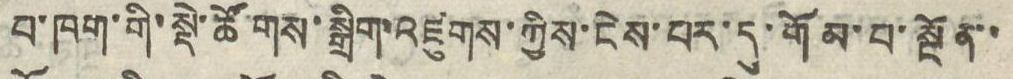པ་ཁག་གི་སྡེ་ཚོགས་སྒྲིག་འཛུགས་ཀྱིས་ངེས་པར་དུ་གོམ་པ་སྔོན་་
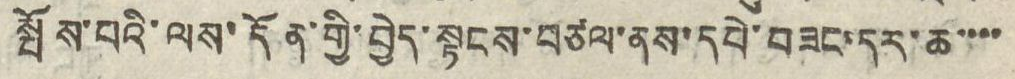སྤོས་པའི་ལས་དོན་གྱི་བྱེད་སྟངས་བཙལ་ནས་དཔེ་བཟང་དར་ཆ་་་་
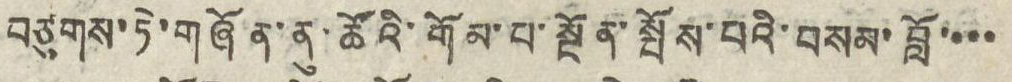བཙུགས་ཏེ་གཞོན་ནུ་ཚོའི་གོམ་པ་སྔོན་སྤོས་པའི་བསམ་བློ་་་་
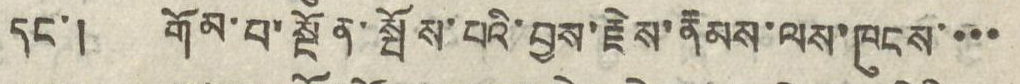དང་། གོམ་པ་སྔོན་སྤོས་པའི་བྱས་རྗེས་རྣམས་ལས་ཁུངས་་་་
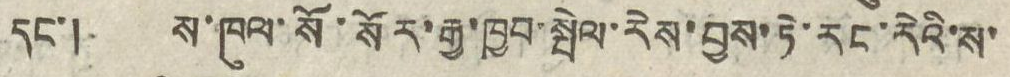དང་། ས་ཁུལ་སོ་སོར་རྒྱ་ཁྱབ་སྤེལ་རེས་བྱས་ཏེ་རང་རེའི་ས་
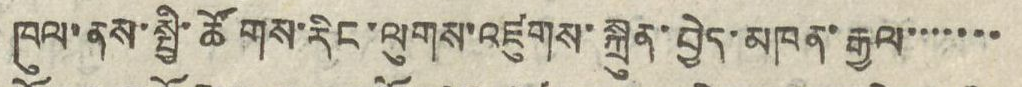ཁུལ་ནས་སྤྱི་ཚོགས་རིང་ལུགས་འཛུགས་སྐྲུན་བྱེད་མཁན་རྒྱལ་་་་་་་
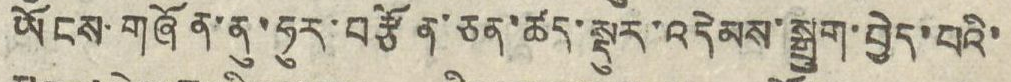ཡོངས་གཞོན་ནུ་ཧུར་བརྩོན་ཅན་ཚད་སྡུར་འདེམས་སྒྲུག་བྱེད་པའི་
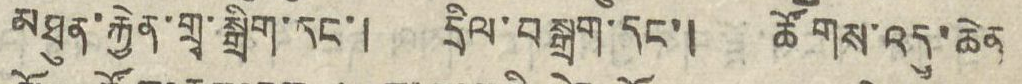མཐུན་རྐྱེན་གྲྭ་སྒྲིག་དང་། དྲིལ་བསྒྲག་དང་། ཚོགས་འདུ་ཆེན
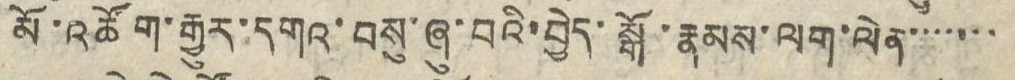མོ་འཚོག་རྒྱུར་དགའ་བསུ་ཞུ་བའི་བྱེད་སྒོ་རྣམས་ལག་ལེན་་་་་་་
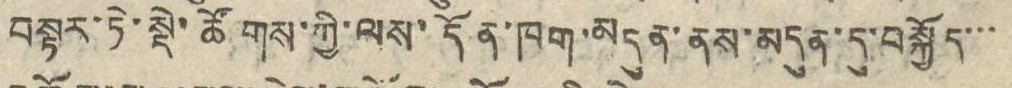བསྟར་ཏེ་སྡེ་ཚོགས་ཀྱི་ལས་དོན་ཁག་མདུན་ནས་མདུན་དུ་བསྐྱོད་་་
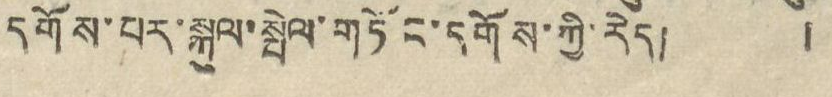དགོས་པར་སྐུལ་སྤེལ་གཏོང་དགོས་ཀྱི་རེད། །
